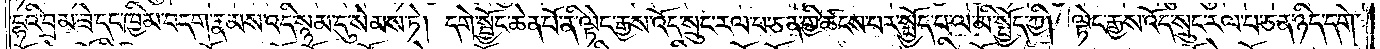དྷའི་བྲམ་ཟེ་དང་ཁྱིམ་བདག་རྣམས་འདི་སྙམ་དུ་སེམས་ཏེ། དགེ་སྦྱོང་ཆེན་པོ་ནི་ལྟེང་རྒྱས་འོད་སྲུང་རལ་པ་ཅན་གྱི་ཚངས་པར་སྤྱོད་པ་ལ་མི་སྤྱོད་ཀྱི། ལྟེང་རྒྱས་འོད་སྲུང་རལ་པ་ཅན་ཉིད་དགེ་
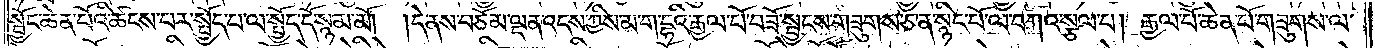སྦྱོང་ཆེན་པོའི་ཚངས་པར་སྤྱོད་པ་ལ་སྤྱོད་དོ་སྙམ་མོ། །དེ་ནས་བཅོམ་ལྡན་འདས་ཀྱིས་མ་ག་དྷའི་རྒྱལ་པོ་བཟོ་སྦྱངས་གཟུགས་ཅན་སྙིང་པོ་ལ་བཀའ་སྩལ་པ། རྒྱལ་པོ་ཆེན་པོ་གཟུགས་ལ་
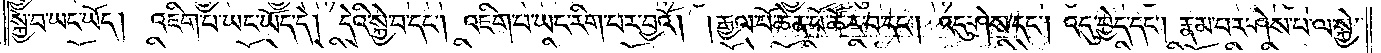སྐྱེ་བ་ཡང་ཡོད། འཇིག་པ་ཡང་ཡོད་དེ། དེའི་སྐྱེ་བ་དང༌། འཇིག་པ་ཡང་རིག་པར་བྱའོ། །རྒྱལ་པོ་ཆེན་པོ་ཚོར་བ་དང༌། འདུ་ཤེས་དང༌། འདུ་བྱེད་དང༌། རྣམ་པར་ཤེས་པ་ལ་སྐྱེ་
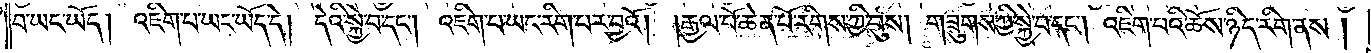བ་ཡང་ཡོད། འཇིག་པ་ཡང་ཡོད་དེ། དེའི་སྐྱེ་བ་དང༌། འཇིག་པ་ཡང་རིག་པར་བྱའོ། །རྒྱལ་པོ་ཆེན་པོ་རིགས་ཀྱི་བུས། གཟུགས་ཀྱི་སྐྱེ་བ་དང༌། འཇིག་པའི་ཆོས་ཉིད་རིག་ནས།
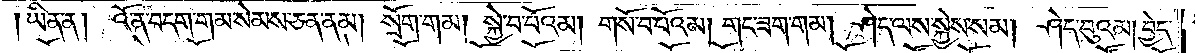ཡིན་ན། འོ་ན་བདག་གམ་སེམས་ཅན་ནམ། སྲོག་གམ། སྐྱེ་བ་པོའམ། གསོ་བ་པོའམ། གང་ཟག་གམ། ཤེད་ལས་སྐྱེས་སམ། ཤེད་བུའམ། བྱེད་
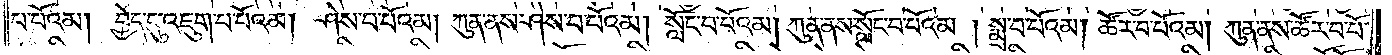པ་པོའམ། བྱེད་དུ་འཇུག་པ་པོའམ། ཤེས་པ་པོའམ། ཀུན་ནས་ཤེས་པ་པོའམ། སློང་པ་པོའམ། ཀུན་ནས་སློང་བ་པོའམ། སྨྲ་བ་པོའམ། ཚོར་བ་པོའམ། ཀུན་ནས་ཚོར་བ་པོ་
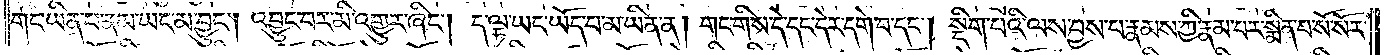གང་ཡིན་པ་ནམ་ཡང་མ་བྱུང༌། འབྱུང་བར་མི་འགྱུར་ཞིང༌། ད་ལྟ་ཡང་ཡོད་པ་མ་ཡིན་ན། གང་གིས་དེ་དང་དེར་དགེ་བ་དང༌། སྡིག་པའི་ལས་བྱས་པ་རྣམས་ཀྱི་རྣམ་པར་སྨིན་པ་སོ་སོར་
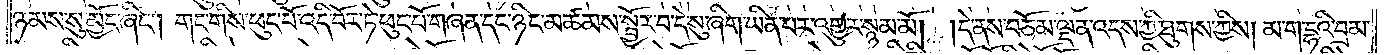ཉམས་སུ་མྱོང་ཞིང༌། གང་གིས་ཕུང་པོ་འདི་བོར་ཏེ་ཕུང་པོ་གཞན་དང་ཉིང་མཚམས་སྦྱོར་བ་དེ་སུ་ཞིག་ཡིན་པར་འགྱུར་སྙམ་མོ། །དེ་ནས་བཅོམ་ལྡན་འདས་ཀྱི་ཐུགས་ཀྱིས། མ་ག་དྷའི་བྲམ་
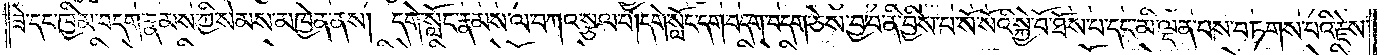ཟེ་དང་ཁྱིམ་བདག་རྣམས་ཀྱི་སེམས་མཁྱེན་ནས། དགེ་སློང་རྣམས་ལ་བཀའ་སྩལ་པ། དགེ་སློང་དག་བདག་བདག་ཅེས་བྱ་བ་ནི་བྱིས་པ་སོ་སོའི་སྐྱེ་བོ་ཐོས་པ་དང་མི་ལྡན་པས་བཏགས་པའི་རྗེས་
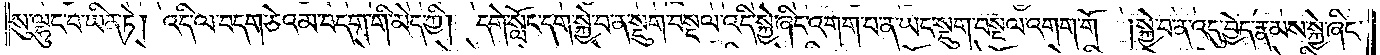སུ་ལྷུང་བ་ཡིན་ཏེ། འདི་ལ་བདག་ཅེའམ་བདག་གི་མེད་ཀྱི། དགེ་སློང་དག་སྐྱེ་བ་ན་སྡུག་བསྔལ་འདི་སྐྱེ་ཞིག་འགག་པ་ན་ཡང་སྡུག་བསྔལ་འགག་གོ །སྐྱེ་བ་ན་འདུ་བྱེད་རྣམས་སྐྱེ་ཞིང་
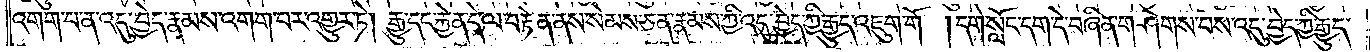འགག་པ་ན་འདུ་བྱེད་རྣམས་འགག་པར་འགྱུར་ཏེ། རྒྱུ་དང་རྐྱེན་དེ་ལ་བརྟེན་ནས་སེམས་ཅན་རྣམས་ཀྱི་འདུ་བྱེད་ཀྱི་རྒྱུད་འཇུག་གོ །དགེ་སློང་དག་དེ་བཞིན་གཤེགས་པས་འདུ་བྱེད་ཀྱི་རྒྱུད་
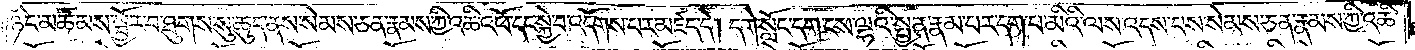ཉིང་མཚམས་སྦྱོར་བ་ཐུགས་སུ་ཆུད་ནས་སེམས་ཅན་རྣམས་ཀྱི་འཆི་འཕོ་དང་སྐྱེ་བ་འདོགས་པར་མཛད་དེ། དགེ་སློང་དག་ངས་ལྷའི་སྤྱན་རྣམ་པར་དག་པ་མིའི་ལས་འདས་པས་སེམས་ཅན་རྣམས་ཀྱི་འཆི་
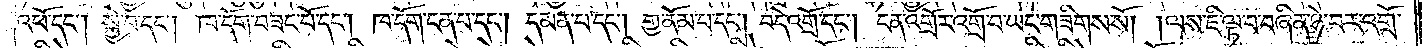འཕོ་དང༌། སྐྱེ་བ་དང༌། ཁ་དོག་བཟང་པོ་དང༌། ཁ་དོག་ངན་པ་དང༌། དམན་པ་དང༌། གྱ་ནོམ་པ་དང༌། བདེ་འགྲོ་དང༌། ངན་འགྲོར་འགྲོ་བ་ཡང་གཟིགས་སོ། །ལས་ཇི་ལྟ་བ་བཞིན་ཉེ་བར་འགྲོ་
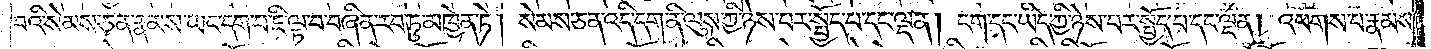བའི་སེམས་ཅན་རྣམས་ཡང་དག་པ་ཇི་ལྟ་བ་བཞིན་རབ་ཏུ་མཁྱེན་ཏེ། སེམས་ཅད་འདི་དག་ནི་ལུས་ཀྱི་ཉེས་པར་སྤྱོད་པ་དང་ལྡན། ངག་དང་ཡིད་ཀྱི་ཉེས་པར་སྤྱོད་པ་དང་ལྡན། འཕགས་པ་རྣམས་
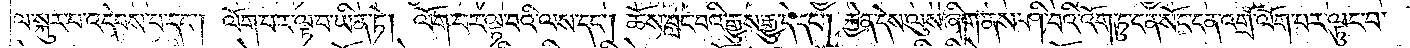ལ་སྐུར་བ་འདེབས་པ་དང༌། ལོག་པར་ལྟ་བ་ཡིན་ཏེ། ལོག་པར་ལྟ་བའི་ལས་དང༌། ཆོས་བླང་བའི་རྒྱུས་རྒྱུ་དེ་དང༌། རྐྱེན་དེས་ལུས་ཞིག་ནས་ཤི་བའི་འོག་ཏུ་ངན་སོང་ངན་འགྲོ་ལོག་པར་ལྟུང་བ་
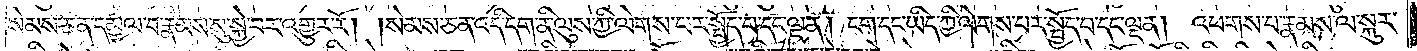སེམས་ཅན་དམྱལ་བ་རྣམས་སུ་སྐྱེ་བར་འགྱུར་རོ། །སེམས་ཅན་འདི་དག་ནི་ལུས་ཀྱི་ལེགས་པར་སྤྱོད་པ་དང་ལྡན། ངག་དང་ཡིད་ཀྱི་ལེགས་པར་སྤྱོད་པ་དང་ལྡན། འཕགས་པ་རྣམས་ལ་སྐུར་
